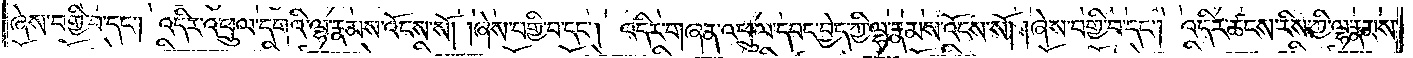ཞེས་བགྱི་བ་དང༌། འདིར་འཕྲུལ་དགའི་ལྷ་རྣམས་འོངས་སོ། ཞེས་བགྱི་བ་དང༌། འདིར་གཞན་འཕྲུལ་དབང་བྱེད་ཀྱི་ལྷ་རྣམས་འོངས་སོ། ཞེས་བགྱི་བ་དང༌། འདིར་ཚངས་རིས་ཀྱི་ལྷ་རྣམས་
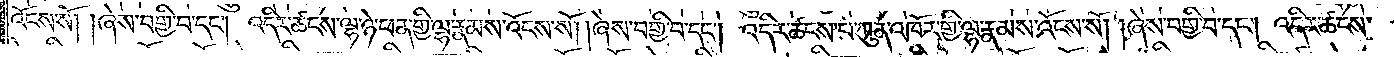འོངས་སོ། ཞེས་བགྱི་བ་དང༌། འདིར་ཚངས་ལྷ་ཉེ་ཕན་གྱི་ལྷ་རྣམས་འོངས་སོ། །ཞེས་བགྱི་བ་དང༌། འདིར་ཚངས་པ་ཀུན་འཁོར་གྱི་ལྷ་རྣམས་འོངས་སོ། །ཞེས་བགྱི་བ་དང༌། འདིར་ཚངས་
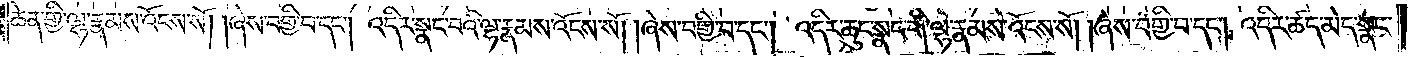ཆེན་གྱི་ལྷ་རྣམས་འོངས་སོ། །ཞེས་བགྱི་བ་དང༌། འདིར་སྣང་བའི་ལྷ་རྣམས་འོངས་སོ། །ཞེས་བགྱི་བ་དང༌། འདིར་ཆུང་སྣང་གི་ལྷ་རྣམས་འོངས་སོ། །ཞེས་བགྱི་བ་དང༌། འདིར་ཚད་མེད་སྣང་
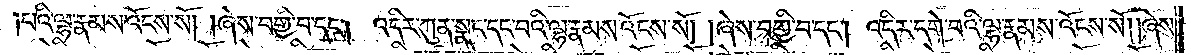བའི་ལྷ་རྣམས་འོངས་སོ། །ཞེས་བགྱི་བ་དང༌། འདིར་ཀུན་སྣང་དང་བའི་ལྷ་རྣམས་འོངས་སོ། །ཞེས་བགྱི་བ་དང༌། འདིར་དགེ་བའི་ལྷ་རྣམས་འོངས་སོ། །ཞེས་
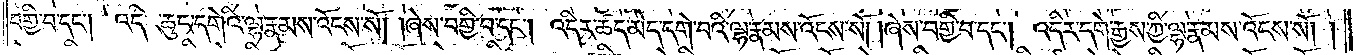བགྱི་བ་དང༌། འདིར་ཆུང་དགེའི་ལྷ་རྣམས་འོངས་སོ། །ཞེས་བགྱི་བ་དང༌། འདིར་ཚད་མེད་དགེ་བའི་ལྷ་རྣམས་འོངས་སོ། །ཞེས་བགྱི་བ་དང༌། འདིར་དགེ་རྒྱས་ཀྱི་ལྷ་རྣམས་འོངས་སོ། །
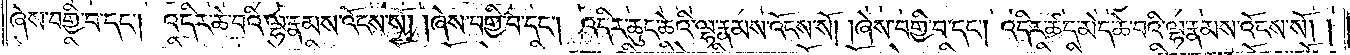ཞེས་བགྱི་བ་དང༌། འདིར་ཆེ་བའི་ལྷ་རྣམས་འོངས་སོ། །ཞེས་བགྱི་བ་དང༌། འདིར་ཆུང་ཆེའི་ལྷ་རྣམས་འོངས་སོ། །ཞེས་བགྱི་བ་དང༌། འདིར་ཚད་མེད་ཆེ་བའི་ལྷ་རྣམས་འོངས་སོ། །
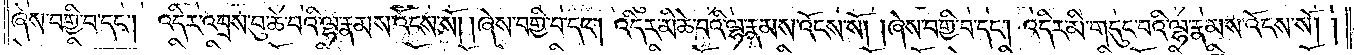ཞེས་བགྱི་བ་དང༌། འདིར་འབྲས་བུ་ཆེ་བའི་ལྷ་རྣམས་འོངས་སོ། །ཞེས་བགྱི་བ་དང༌། འདིར་མི་ཆེ་བའི་ལྷ་རྣམས་འོངས་སོ། །ཞེས་བགྱི་བ་དང༌། འདིར་མི་གདུང་བའི་ལྷ་རྣམས་འོངས་སོ། །
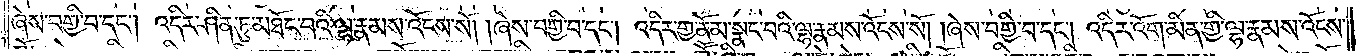ཞེས་བགྱི་བ་དང༌། འདིར་ཤིན་ཏུ་མཐོང་བའི་ལྷ་རྣམས་འོངས་སོ། །ཞེས་བགྱི་བ་དང༌། འདིར་གྱ་ནོམ་སྣང་བའི་ལྷ་རྣམས་འོངས་སོ། །ཞེས་བགྱི་བ་དང༌། འདིར་འོག་མིན་གྱི་ལྷ་རྣམས་འོངས་
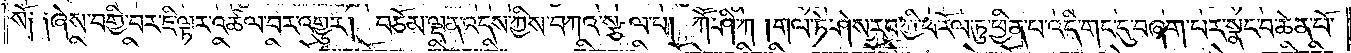སོ༑ ༑ཞེས་བགྱི་བར་ཇི་ལྟར་འཚལ་བར་འགྱུར། བཅོམ་ལྡན་འདས་ཀྱིས་བཀའ་སྩལ་པ། ཀཽ་ཤི་ཀ །གལ་ཏེ་ཤེས་རབ་ཀྱི་ཕ་རོལ་ཏུ་ཕྱིན་པ་འདི་གང་དུ་བཞག་པར་སྣང་བ་ཆེན་པོ་
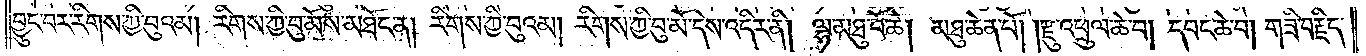བྱུང་བར་རིགས་ཀྱི་བུའམ། རིགས་ཀྱི་བུ་མོས་མཐོང་ན། རིགས་ཀྱི་བུའམ། རིགས་ཀྱི་བུ་མོ་དེས་འདིར་ནི། ལྷ་མཐུ་བོ་ཆེ། མཐུ་ཆེན་པོ། །རྫུ་འཕྲུལ་ཆེ་བ། དབང་ཆེ་བ། གཟི་བརྗིད་
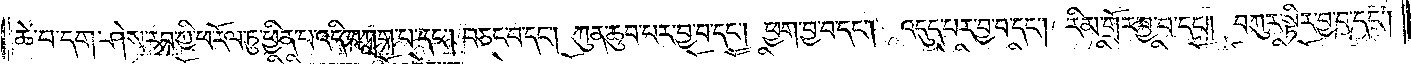ཆེ་བ་དག་ཤེས་རབ་ཀྱི་ཕ་རོལ་ཏུ་ཕྱིན་པ་འདི་བཀླག་པ་དང༌། བཅང་བ་དང༌། ཀུན་ཆུབ་བར་བྱ་བ་དང༌། ཕྱག་བྱ་བ་དང༌། འདུད་པར་བྱ་བ་དང༌། རིམ་གྲོར་བྱ་བ་དང༌། བཀུར་སྟིར་བྱ་བ་དང༌།
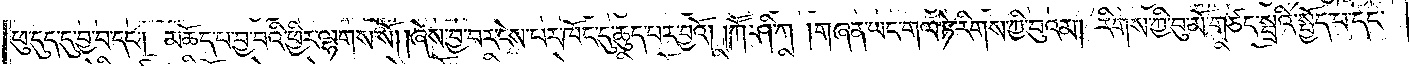ཕུ་དུད་དུ་བྱ་བ་དང༌། མཆོད་པ་བྱ་བའི་ཕྱིར་ལྷགས་སོ། །ཞེས་བྱ་བར་ངེས་པར་ཁོང་དུ་ཆུད་པར་བྱའོ། །ཀཽ་ཤི་ཀ །གཞན་ཡང་གལ་ཏེ་རིགས་ཀྱི་བུའམ། རིགས་ཀྱི་བུ་མོ་གཙང་སྦྲའི་སྤྱོད་པ་དང་
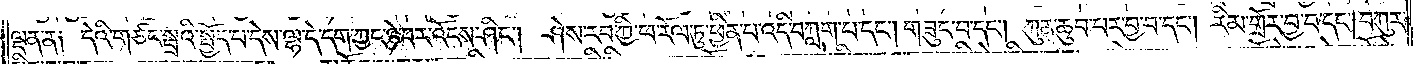ལྡན་ན། དེའི་གཙང་སྦྲའི་སྤྱོད་པ་དེས་ལྷ་དེ་དག་ཀྱང་ཉེ་བར་འོངས་ཤིང༌། ཤེས་རབ་ཀྱི་ཕ་རོལ་ཏུ་ཕྱིན་པ་འདི་བཀླག་པ་དང༌། གཟུང་བ་དང༌། ཀུན་ཆུབ་པར་བྱ་བ་དང༌། རིམ་གྲོར་བྱ་བ་དང༌། བཀུར་
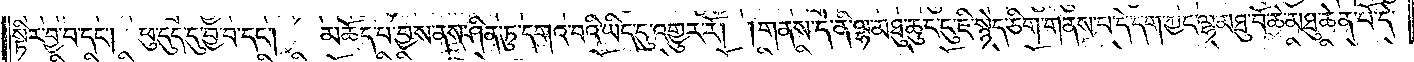སྟིར་བྱ་བ་དང༌། ཕུ་དུད་དུ་བྱ་བ་དང༌། མཆོད་པ་བྱས་ནས་ཤིན་ཏུ་དགའ་བའི་ཡིད་དུ་འགྱུར་རོ། །གནས་དེ་ནི་ལྷ་མཐུ་ཆུང་ངུ་ཇི་སྙེད་ཅིག་གནས་པ་དེ་དག་ཀྱང་ལྷ་མཐུ་བོ་ཆེ་མཐུ་ཆེན་པོ་དེ་
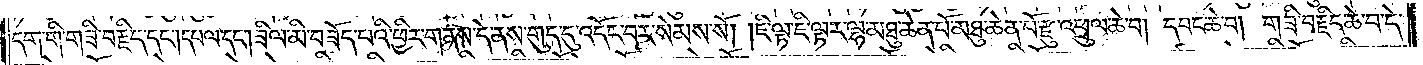དག་གི་གཟི་བརྗིད་དང་དཔལ་དང་ཟིལ་མི་བཟོད་པའི་ཕྱིར་གནས་དེ་ནས་གུད་དུ་འདོང་བར་སེམས་སོ། །ཇི་ལྟ་ཇི་ལྟར་ལྷ་མཐུ་ཆེན་པོ་མཐུ་ཆེན་པོ་རྫུ་འཕྲུལ་ཆེ་བ། དབང་ཆེ་བ། གཟི་བརྗིད་ཆེ་བ་དེ་
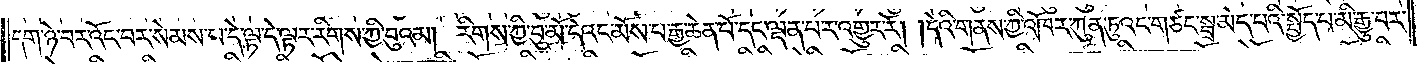དག་ཉེ་བར་འོང་བར་སེམས་པ་དེ་ལྟ་དེ་ལྟར་རིགས་ཀྱི་བུའམ། རིགས་ཀྱི་བུ་མོ་དེའང་མོས་པ་རྒྱ་ཆེན་པོ་དང་ལྡན་པར་འགྱུར་རོ། །དེའི་གནས་ཀྱི་འཁོར་ཀུན་ཏུའང་གཙང་སྦྲ་མེད་པའི་སྤྱོད་པ་མི་རྒྱུ་བར་
